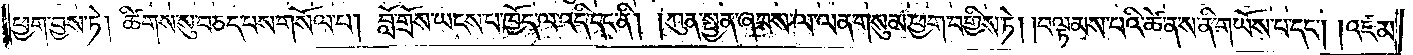ཕྱག་བྱས་ཏེ། ཚིགས་སུ་བཅད་པས་གསོལ་པ། བློ་གྲོས་ཡངས་པ་ཁྱོད་ལ་འདི་དང་ནི། །ཀུན་སྤྱན་ཞབས་ལ་ལན་གསུམ་ཕྱག་བགྱིས་ཏེ། བལྟམས་པའི་ཚེ་ན་ས་ནི་གཡོས་པ་དང༌། །འཛམ་
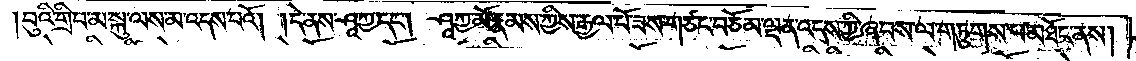བུའི་གྲིབ་མ་སྐུ་ལས་མ་འདས་པའོ། །དེ་ནས་ཤཱཀྱ་དང༌། ཤཱཀྱ་མོ་རྣམས་ཀྱིས་རྒྱལ་པོ་ཟས་གཙང་བཅོམ་ལྡན་འདས་ཀྱི་ཞབས་ལ་གཏུགས་པ་མཐོང་ནས།
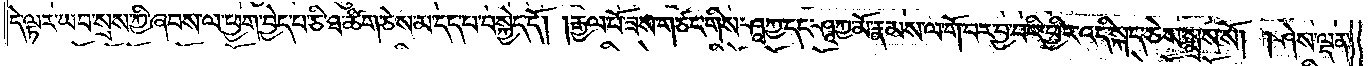དེ་ལྟར་ཡབ་སྲས་ཀྱི་ཞབས་ལ་ཕྱག་བྱེད་པ་ཅི་ཐ་ཚིག་ཅེས་མ་དད་པ་བསྐྱེད་དོ། །རྒྱལ་པོ་ཟས་གཙང་གིས་ཤཱཀྱ་དང་ཤཱཀྱ་མོ་རྣམས་ལ་གོ་བར་བྱ་བའི་ཕྱིར་འདི་སྐད་ཅེས་སྨྲས་སོ། །ཤེས་ལྡན་
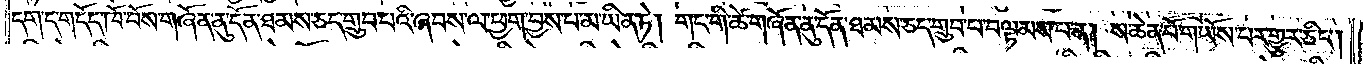དག་ད་གདོད་ཁོ་བོས་གཞོན་ནུ་དོན་ཐམས་ཅད་གྲུབ་པའི་ཞབས་ལ་ཕྱག་བྱས་པ་མ་ཡིན་ཏེ། གང་གི་ཚེ་གཞོན་ནུ་དོན་ཐམས་ཅད་གྲུབ་པ་བལྟམས་པ་ན། སེ་ཆེན་པོ་གཡོས་པར་གྱུར་ཅིང༌།
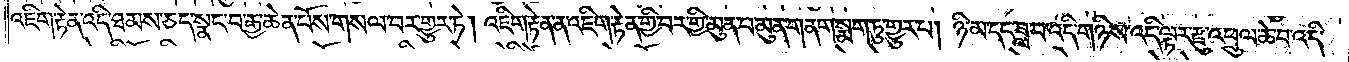འཇིག་རྟེན་འདི་ཐམས་ཅད་སྣང་བ་རྒྱ་ཆེན་པོས་གསལ་བར་གྱུར་ཏེ། འཇིག་རྟེན་ན་འཇིག་རྟེན་གྱི་བར་གྱི་མུན་པ་མུན་གནག་སྨག་ཏུ་གྱུར་པ། ཉི་མ་དང་ཟླ་བ་འདི་གཉིས་འདི་ལྟར་རྫུ་འཕྲུལ་ཆེ་བ་འདི་
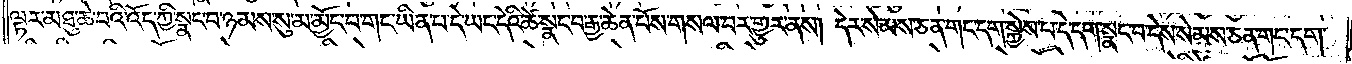ལྟར་མཐུ་ཆེ་བའི་འོད་ཀྱི་སྣང་བ་ཉམས་སུ་མ་མྱོང་བ་གང་ཡིན་པ་དེ་ཡང་དེ་ཚེ་སྣང་བ་རྒྱ་ཆེན་པོས་གསལ་བར་གྱུར་ནས། དེར་སེམས་ཅན་གང་དག་སྐྱེས་པ་དེ་དག་སྣང་བ་དེ་སེམས་ཅན་གང་དག་
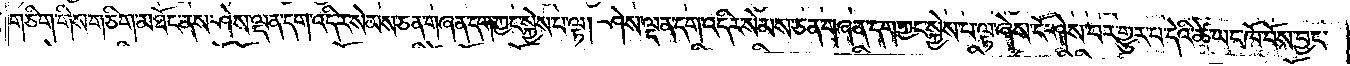གཅིག་གིས་གཅིག་མཐོང་ནས་ཤེས་ལྡན་དག་འདིར་སེམས་ཅན་གཞན་དག་ཀྱང་སྐྱེས་པ་ལྟ། ཤེས་ལྡན་དག་འདིར་སེམས་ཅན་གཞན་དག་ཀྱང་སྐྱེས་པ་ལྟ་ཞེས་ངོ་ཤེས་པར་གྱུར་པ་དེའི་ཚེ་ཡང་ཁོ་བོས་བྱང་
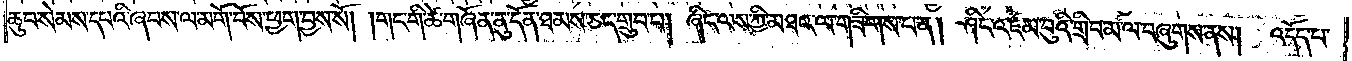ཆུབ་སེམས་དཔའི་ཞབས་ལ་མགོ་བོས་ཕྱག་བྱས་སོ། །གང་གི་ཚེ་གཞོན་ནུ་དོན་ཐམས་ཅད་གྲུབ་པ། ཞིང་ལས་ཀྱི་མཐའ་ལ་གཟིགས་པ་ན། ཤིང་འཛམ་བུའི་གྲིབ་མ་ལ་བཞུགས་ནས། འདོད་པ་
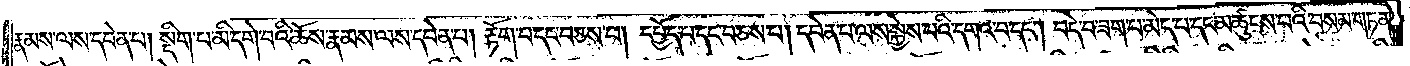རྣམས་ལས་དབེན་པ། སྡིག་པ་མི་དགེ་བའི་ཆོས་རྣམས་ལས་དབེན་པ། རྟོག་པ་དང་བཅས་པ། དཔྱོད་པ་དང་བཅས་པ། དབེན་པ་ལས་སྐྱེས་པའི་དགའ་བ་དང༌། བདེ་བ་ཟག་པ་མེད་པ་དང་མཚུངས་པའི་བསམ་གཏན་
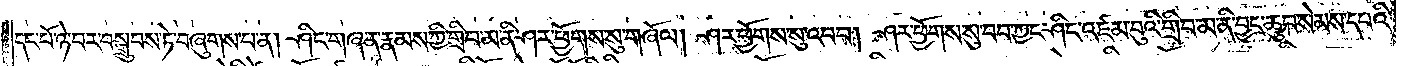དང་པོ་ཉེ་བར་བསྒྲུབས་ཏེ་བཞུགས་པ་ན། ཤིང་གཞན་རྣམས་ཀྱི་གྲིབ་མ་ནི་ཤར་ཕྱོགས་སུ་གཞོལ། ཤར་ཕྱོགས་སུ་འབབ། ཤར་ཕྱོགས་སུ་བབ་ཀྱང་ཤིང་འཛམ་བུའི་གྲིབ་མ་ནི་བྱང་ཆུབ་སེམས་དཔའི་
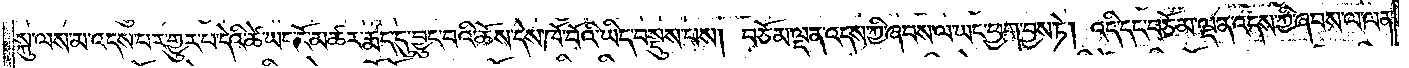སྐུ་ལས་མ་འདས་པར་གྱུར་པ་དེའི་ཚེ་ཡང་ངོ་མཚར་རྨད་དུ་བྱུང་བའི་ཆོས་དེས་ཁོ་བོའི་ཡིད་བསྡུས་པས། བཅོམ་ལྡན་འདས་ཀྱི་ཞབས་ལ་ཡང་ཕྱག་བྱས་ཏེ། འདི་དང་བཅོམ་ལྡན་འདས་ཀྱི་ཞབས་ལ་ལན་
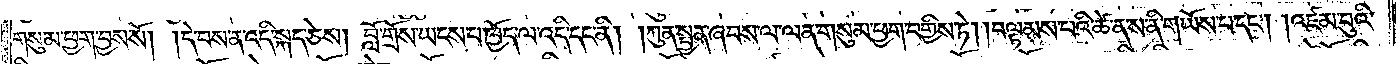གསུམ་ཕྱག་བྱས་སོ། །དེ་བས་ན་འདི་སྐད་ཅེས། བློ་གྲོས་ཡངས་པ་ཁྱོད་ལ་འདི་དང་ནི། །ཀུན་སྤྱན་ཞབས་ལ་ལན་གསུམ་ཕྱག་བགྱིས་ཏེ། །བལྟམས་པའི་ཚེ་ནས་ནི་གཡོས་པ་དང༌། །འཛམ་བུའི་
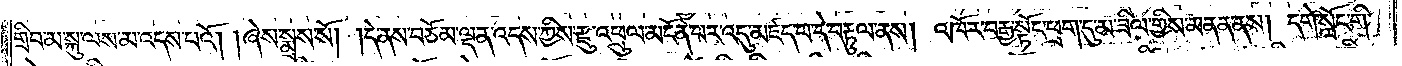གྲིབ་མ་སྐུ་ལས་མ་འདས་པའོ། །ཞེས་སྨྲས་སོ། །དེ་ནས་བཅོམ་ལྡན་འདས་ཀྱིས་རྫུ་འཕྲུལ་མངོན་པར་འདུ་མཛད་པ་དེ་བརྟུལ་ནས། འཁོར་བརྒྱ་སྟོང་ཕྲག་དུ་མ་ཟིལ་གྱིས་མནན་ནས། དགེ་སློང་གི་
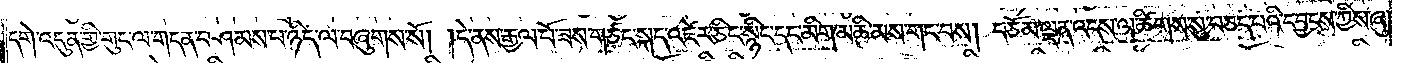དགེ་འདུན་གྱི་གུང་ལ་གདན་བཤམས་པ་ཉིད་ལ་བཞུགས་སོ། །དེ་ནས་རྒྱལ་པོ་ཟས་གཙང་སྐད་འཛེར་ཅིང་སྙིང་དང་མིག་མཆི་མས་གང་བས། བཅོམ་ལྡན་འདས་ལ་ཚིགས་སུ་བཅད་པའི་དབྱངས་ཀྱིས་ཞུ་
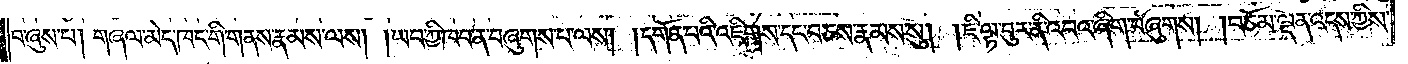བ་ཞུས་པ། གཞལ་མེད་ཁང་གི་གནས་རྣམས་ལས། །ཡབ་ཀྱི་ཁབ་ན་བཞུགས་པ་ལས། །དགོན་པའི་འཇིགས་དང་བཅས་རྣམས་སུ། །ཇི་ལྟ་བུར་ནི་འབའ་ཞིག་བཞུགས། །བཅོམ་ལྡན་འདས་ཀྱིས་
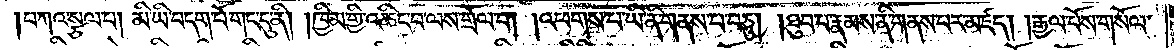།བཀའ་སྩལ་པ། མི་ཡི་བདག་པོ་གང་དུ་ནི། །ཁྱིམ་གྱི་འཆིང་བ་ལས་གྲོལ་བ། །འཕགས་པ་ཡི་ནི་གནས་པ་བཅུ། །ཐུབ་པ་རྣམས་ནི་གནས་པར་མཛད། །རྒྱལ་པོས་གསོལ་
